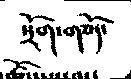སྲོག་གཅོད་
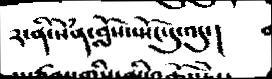༢་ནི་སེཾན་བློས་སྤོང་དུ་འདུ་།
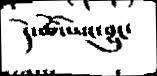དེ་ཚོ་ཡང་བྱུང་
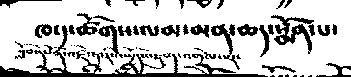ཁ་༡་ཚོགས་ལམ་མན་ཆད་སྨོན་པ་
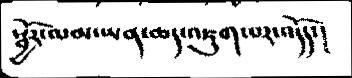སྦྱོར་ལམ་ཡན་ཆད་འཇུག་པར་འདོད་།
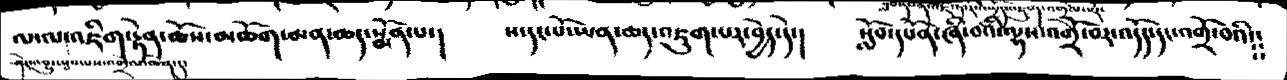ལ་ལ་འཇིག་རྟེན་ཆོས་མཆོག་མན་ཆད་སྨོན་པ་།  ས་དང་པོ་ཡན་ཆད་འཇུག་པར་བྱེད་དེ་།   སློབ་དཔོན་ཞི་བའི་ལྷས་འགྲོ་བར་འདོད་དང་འགྲོ་བའི༴༴
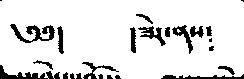༅༅།    །ཟེར་ནས༴
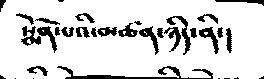སྨོན་པའི་མཚན་ཉིད་ནི་།
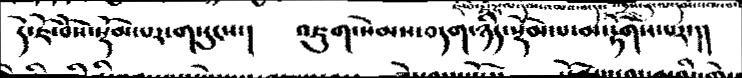དེ་ཇོ་བོས་སྡོམ་པར་གསུངས་།   འཇུག་སེམས་བདག་ཉིད་སྡོམ་པ་མ་རྟོགས་པར་།།
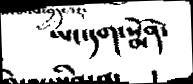ཡང་དག་སྨོན་
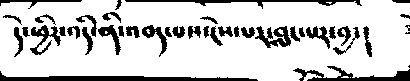དེ་ཕྱིར་འདི་ནི་འབད་པས་ངེས་པར་བླང་པར་བྱ་།
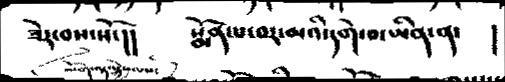ཟེར་བས་སོ་།།    སྨོན་པ་བར་མའི་དགེ་བ་ཡིན་ན་   །
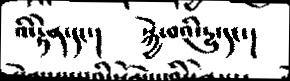འི་རྟེན་དང་།  སྐྱེ་བའི་དྱུ་དང་།
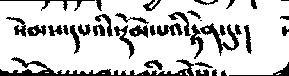སེམས་དཔའི་སྡོམ་པའི་རྟེན་དུ་།
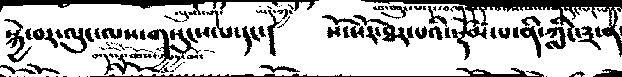སྐྱེ་བར་ལུང་ལས་གསུངས་པ་དང་།    སོ་སོར་ཐར་པའི་སྡོམ་པ་ནི་ཀླིང་༣་ན་
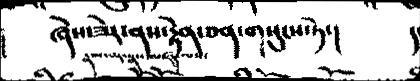ཞེས་ཟེར་ནས་རྟེན་ཅན་གསུངས་ཏེ་།        ད
